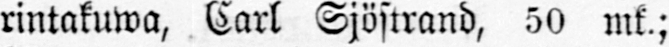rintakuwa, Carl Sjöstrand, 50 mk.;
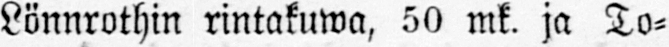Lönnrothin rintakuwa, 50 mk. ja To-
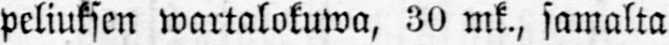peliuksen wartalokuwa, 30 mk., samalta
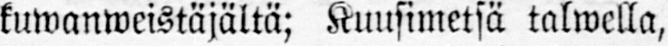kuwanweistäjältä; Kuusimetsä talwella,
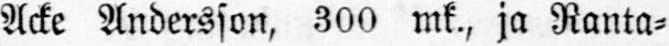Acke Andersson, 300 mk., ja Ranta-
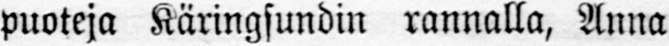puoteja Käringsundin rannalla, Anna
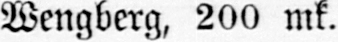Wengberg, 200 mk.
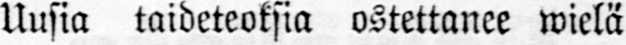Uusia taideteoksia ostettanee wielä
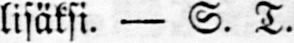lisäksi. — S. T.
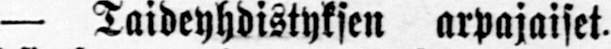— Taideyhdistyksen arpajaiset.
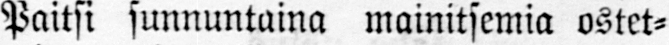Paitsi sunnuntaina mainitsemia ostet-
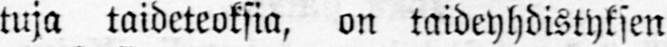tuja taideteoksia, on taideyhdistyksen
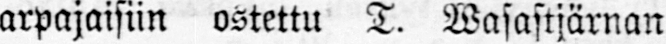arpajaisiin ostettu T. Wasastjärnan
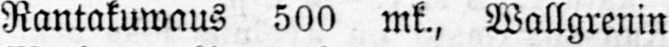Rantakuwaus 500 mk., Wallgrenin
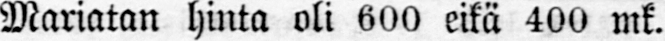Mariatan hinta oli 600 eikä 400 mk.
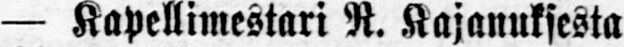— Kapellimestari N. Kajanuksesta
